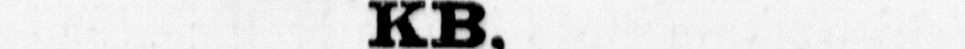KB,
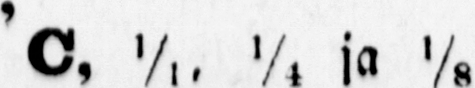C, @ ¼ ja ⅛
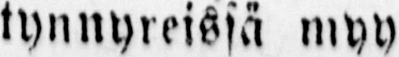tynnyreissä myy
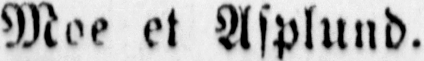Moe et Asplund.
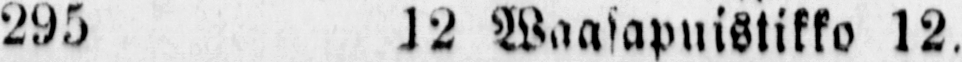295 l2 Waasapuistikko 12.
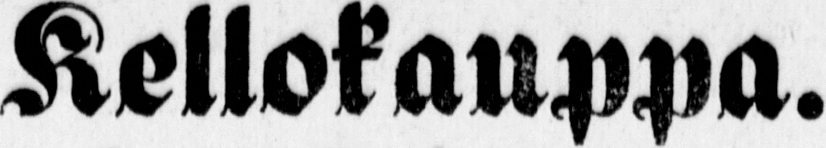Kellokauppa.
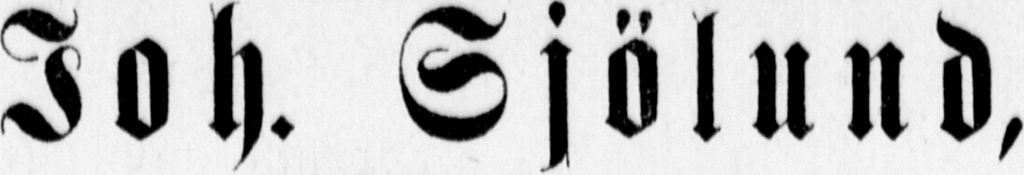Joh. Sjölund,
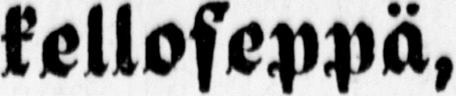kelloseppä,
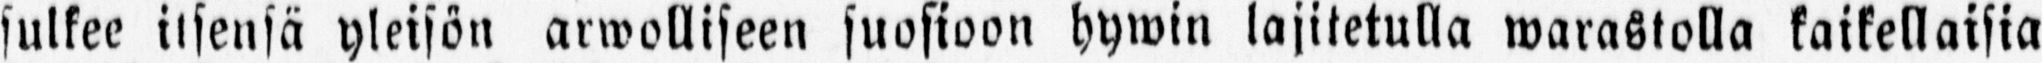sulkee itsensä yleisön arwolliseen suosioon hywin lajitetulla warastolla kaikellaisia
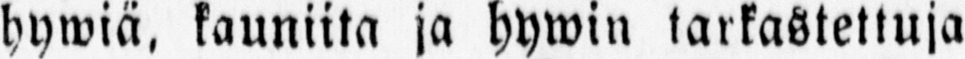hywiä, kauniita ja hywin tarkastettuja
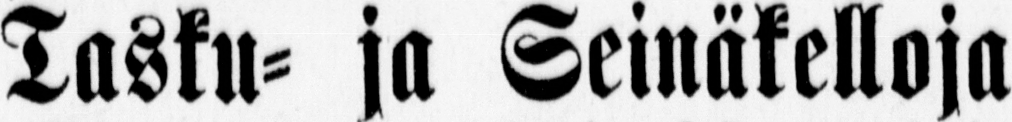Tasku- ja Seinäkelloja
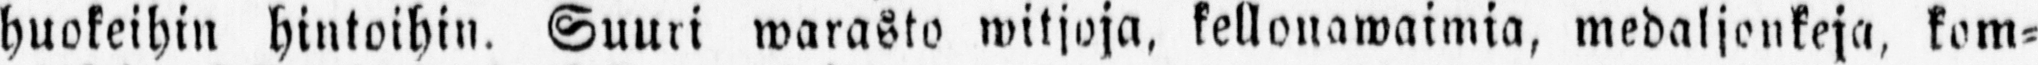huokeihin hintoihin. Suuri warasto witjoja, kellonawaimia, medaljonkeja, kom-
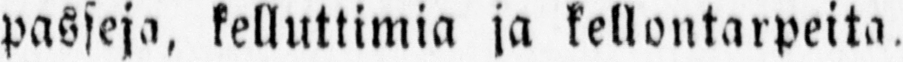passeja, kelluttimia ja kellontarpeita.
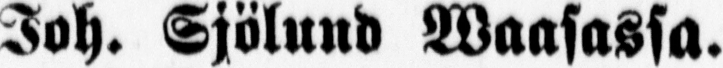Joh. Sjölund Waasassa.
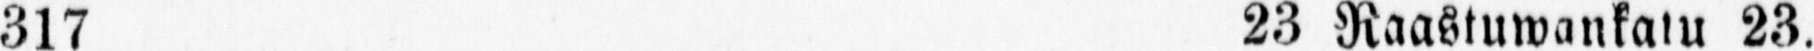317 23 Raastuwankatu 23.
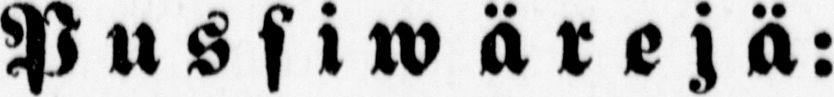Pussiw ärejä:
